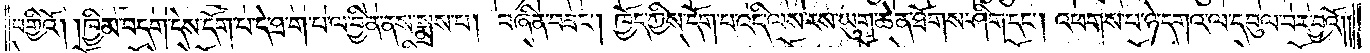བགྱིའོ། །ཁྱིམ་བདག་དེས་དོག་པ་དེ་ཐ་ག་པ་ལ་བྱིན་ནས་སྨྲས་པ། བཞིན་བཟང༌། ཁྱོད་ཀྱིས་དོག་པ་འདི་ལས་རས་ཡུག་ཆེན་ཐོགས་ཤིག་དང༌། འཕགས་པ་ཉེ་དགའ་ལ་དབུལ་བར་བྱའོ༎
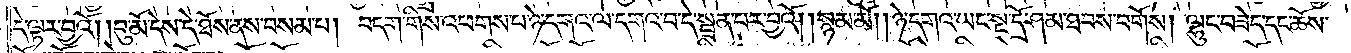དེ་ལྟར་བྱའོ། །བུ་མོ་དེས་དེ་ཐོས་ནས་བསམ་པ། བདག་གིས་འཕགས་པ་ཉེ་དགའ་ལ་དགའ་བ་དེ་སྦྲན་པར་བྱའོ། །སྙམ་མོ། །ཉེ་དགའ་ཡང་སྔ་དྲོ་ཤམ་ཐབས་བགོས། ལྷུང་བཟེད་དང་ཆོས་
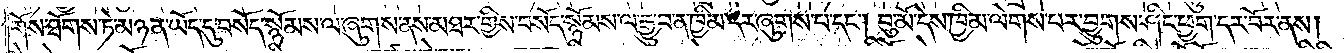གོས་ཐོགས་ཏེ་མཉན་ཡོད་དུ་བསོད་སྙོམས་ལ་ཞུགས་ནས་མཐར་གྱིས་བསོད་སྙོམས་ལ་རྒྱུ་བ་ན་ཁྱིམ་དེར་ཞུགས་པ་དང༌། བུ་མོ་དེས་ཁྱིམ་ལེགས་པར་བྱུགས་ཤིང་ཕྱག་དར་བོར་ནས།
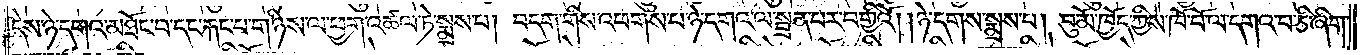དེས་ཉེ་དགའ་མཐོང་བ་དང་རྐང་པ་གཉིས་ལ་ཕྱག་འཚལ་ཏེ་སྨྲས་པ། བདག་གིས་འཕགས་པ་ཉེ་དགའ་ལ་སྦྲན་པར་བགྱིའོ། །ཉེ་དགས་སྨྲས་པ། བུ་མོ་ཁྱོད་ཀྱིས་ཁོ་བོ་ལ་དགའ་བ་ཅི་ཞིག་
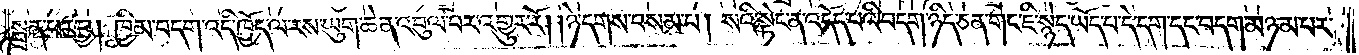སྦྲན་པར་བྱ། ཁྱིམ་བདག་འདི་ཁྱོད་ལ་རས་ཡུག་ཆེན་འབུལ་བར་འགྱུར་རོ། །ཉེ་དགས་བསམ་པ། སའི་སྟེང་ན་འདོད་པའི་བདག་ཉིད་ཅན་གང་ཇི་སྙེད་ཡོད་པ་དེ་དག་དང་བདག་མཉམ་པར་
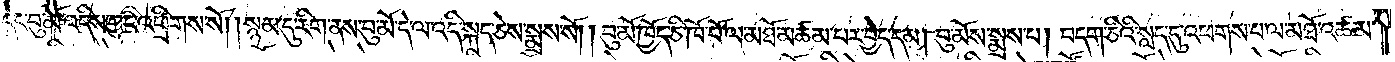དེང་བུ་མོ་འདིས་ཀྱང་འཕྲིགས་སོ། །སྙམ་དུ་རིག་ནས་བུ་མོ་དེ་ལ་འདི་སྐད་ཅེས་སྨྲས་སོ། །བུ་མོ་ཁྱོད་ཅི་ཁོ་བོ་ལ་མཐོ་མཚམ་པར་བྱེད་དམ། བུ་མོས་སྨྲས་པ། བདག་ཅིའི་སླད་དུ་འཕགས་པ་ལ་མཐོ་འཚམ་
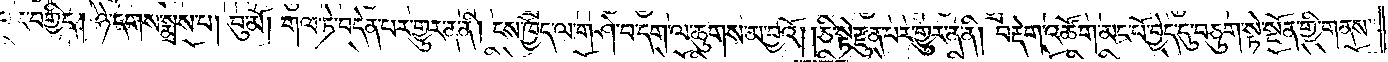པར་བགྱིད། ཉེ་དགས་སྨྲས་པ། བུ་མོ། གལ་ཏེ་བདེན་པར་གྱུར་ན་ནི། ངས་ཁྱོད་ལ་གཤེ་བ་དག་ལ་ཆུགས་མ་བྱའོ། །ཅི་སྟེ་རྫུན་པར་གྱུར་ན་ནི། བརྡེག་འཚོག་མང་པོ་བྱེད་དུ་བཅུག་སྟེ་སྔོན་གྱི་གནས་
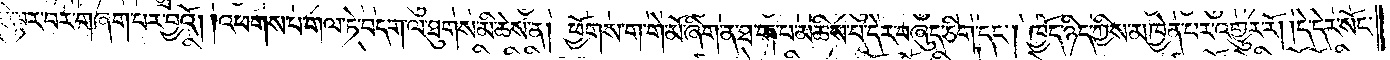ཇི་ལྟར་བར་གཞག་པར་བྱའོ། །འཕགས་པ་གལ་ཏེ་བདག་ལ་ཐུགས་མི་ཆེས་ན། ཕྱོགས་ག་གེ་མོ་ཞིག་ན་ཐ་ག་པ་མཆིས་པ་དེར་བཞུད་ཅིག་དང༌། ཁྱོད་ཉིད་ཀྱིས་མཁྱེན་པར་འགྱུར་རོ། །དེ་དེར་སོང་
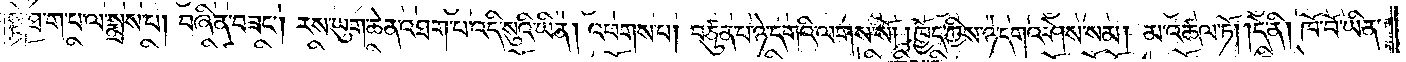སྟེ་ཐ་ག་པ་ལ་སྨྲས་པ། བཞིན་བཟང༌། རས་ཡུག་ཆེན་འཐག་པ་འདི་སུའི་ཡིན། འཕགས་པ། བཙུན་པ་ཉེ་དགའི་ལགས་སོ། །ཁྱོད་ཀྱིས་ཉེ་དགའ་ཤེས་སམ། མ་འཚལ་ཏོ། །དེ་ནི། ཁོ་བོ་ཡིན་
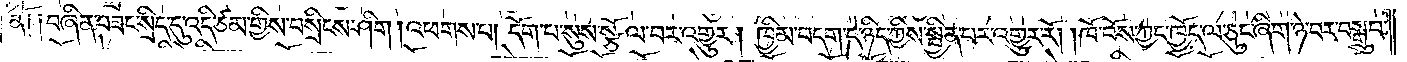ནོ༑ ༑བཞིན་བཟང་སྲིད་དུ་འདི་ཙམ་གྱིས་བསྲིངས་ཤིག །འཕགས་པ། དོག་པ་སུས་སྩོལ་བར་འགྱུར། ཁྱིམ་བདག་དེ་ཉིད་ཀྱིས་སྦྱིན་པར་འགྱུར་རོ། །ཁོ་བོས་ཀྱང་ཁྱོད་ལ་ཅུང་ཞིག་ཉེ་བར་བསྒྲུབ་
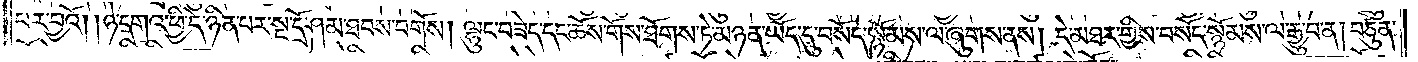པར་བྱའོ། །ཉེ་དགའ་ཕྱི་དེ་ཉིན་པར་སྔ་དྲོ་ཤམ་ཐབས་བགོས། ལྷུང་བཟེད་དང་ཆོས་གོས་ཐོགས་ཏེ་མཉན་ཡོད་དུ་བསོད་སྙོམས་ལ་ཞུགས་ནས། དེ་མཐར་གྱིས་བསོད་སྙོམས་ལ་རྒྱུ་བ་ན། བཙུན་
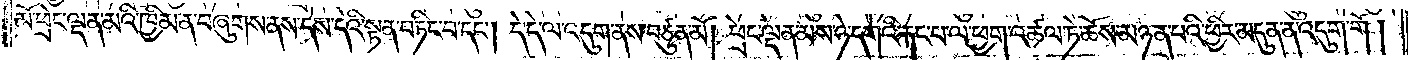མོ་ཕྲེང་ལྡན་མའི་ཁྱིམ་ན་བཞུགས་ནས་དེས་དེའི་སྟན་བཏིང་བ་དང༌། དེ་དེ་ལ་འདུག་ནས་བཙུན་མོ། ཕྲེང་ལྡན་མས་ཉེ་དགའི་རྐང་པ་ལ་ཕྱག་འཚལ་ཏེ་ཆོས་མཉན་པའི་ཕྱིར་མདུན་ན་འདུག་གོ།
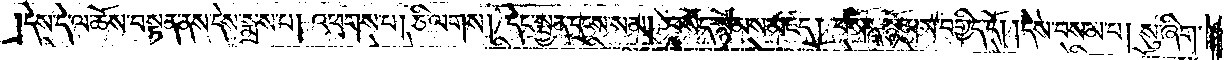དེས་དེ་ལ་ཆོས་བསྟན་ནས་དེས་སྨྲས་པ། འཕགས་པ། ཅི་ལགས། དེང་སྤྱན་དྲངས་སམ། བསོད་སྙོམས་མཛད། བསོད་སྙོམས་བགྱིད་དོ། །དེས་བསམ་པ། སུ་ཞིག་
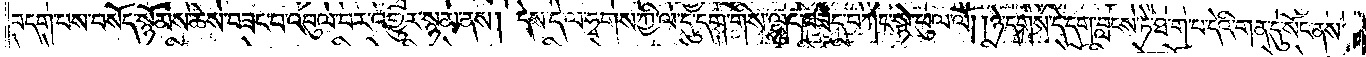བདག་པས་བསོད་སྙོམས་ཆེས་བཟང་བ་འབུལ་བར་འགྱུར་སྙམ་ནས། དེས་དེ་ལ་ཧྭགས་ཀྱི་ལ་དུ་དག་གིས་ལྷུང་བཟེད་བཀང་སྟེ་ཕུལ་ལོ། །ཉེ་དགས་དེ་དག་བླངས་ཏེ་ཐ་ག་པ་དེའི་གན་དུ་སོང་ནས་
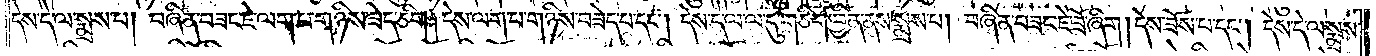དེས་དེ་ལ་སྨྲས་པ། བཞིན་བཟང་ཇེ་ལག་པ་གཉིས་ཟེད་ཅིག །དེས་ལག་པ་གཉིས་བཟེད་པ་དང༌། དེས་དེ་ལ་ལ་དུ་གཅིག་བྱིན་ནས་སྨྲས་པ། བཞིན་བཟང་ཇེ་ཟོ་ཞིག །དེས་ཟོས་པ་དང༌། དེས་དེ་ལ་སྨྲས་
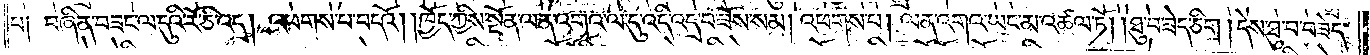པ༑ བཞིན་བཟང་ལ་དུའི་རོ་ཅི་འདྲ། འཕགས་པ་བདའོ། །ཁྱོད་ཀྱིས་སྔོན་ལན་འགའ་ལ་དུ་འདི་འདྲ་བ་ཟོས་སམ། འཕགས་པ། ལན་འགའ་ཡང་མ་འཚལ་ཏོ། །ཐུ་བ་ཟེད་ཅིག །དེས་ཐུ་བ་བཟེད་
